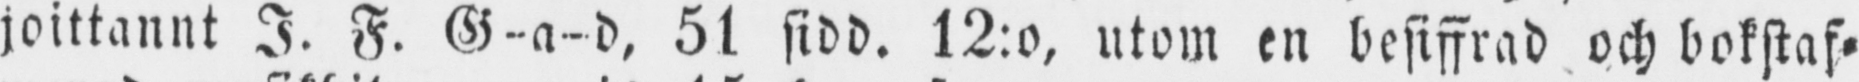joittanut I. F. G-a-d, 51 sidd. 12:o, utom en besiffrad och bokstaf-
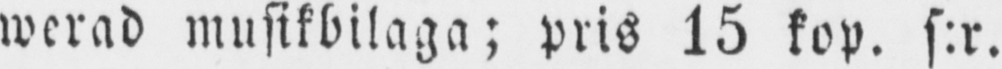werad musikbilaga; pris 15 kop. s:r.
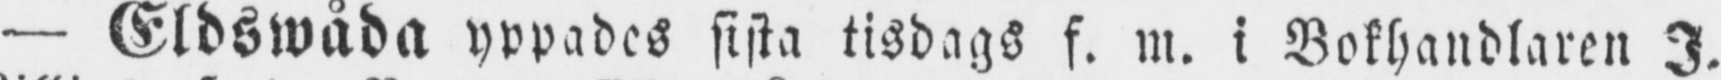— Eldswåda yppades sista tisdags f. m. i Bokhandlaren I.
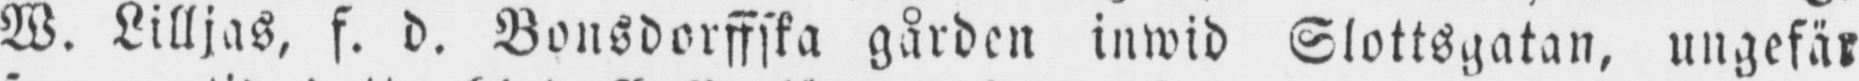W. Lilljas, f. d. Bonsdorffska gården inwid Slottsgatan, ungefär
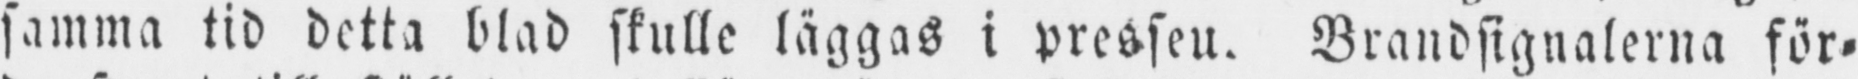samma tid detta blad skulle läggas i pressen. Brandsignalerna för-
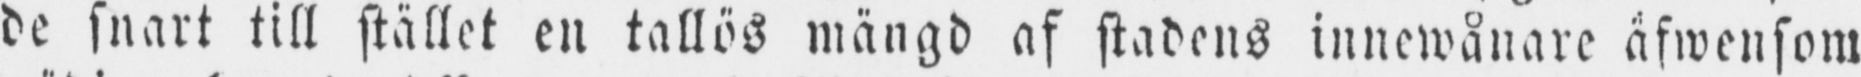de snart till stället en tallös mängd af stadens innewånare äfwensom
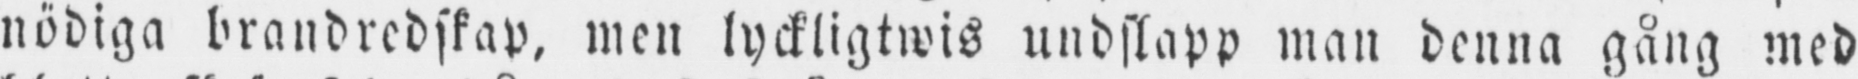nödiga brandredskap, men lyckligtwis undslapp man denna gång med
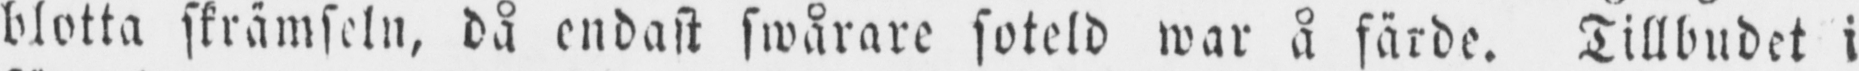blotta skrämseln, då endast swårare soteld war å färde. Tillbudet i
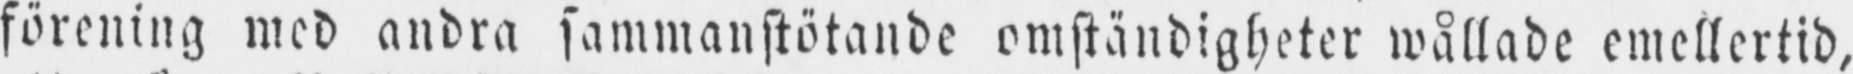förening med andra sammanstötande omständigheter wållade emellertid,
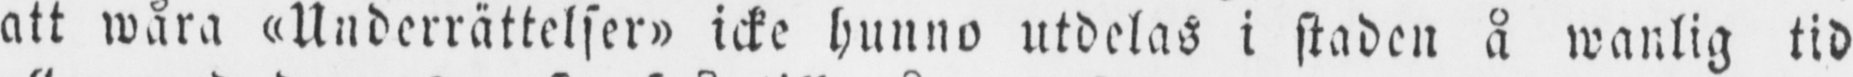att wåra "Underrättelser" icke hunno utdelas i staden å wanlig tid
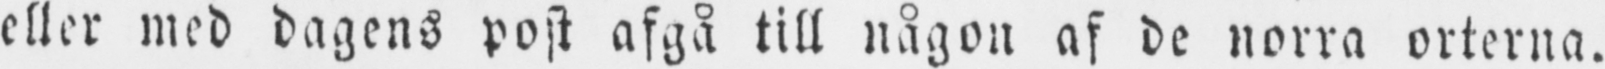eller med dagens post afgå till någon af de norra orterna.
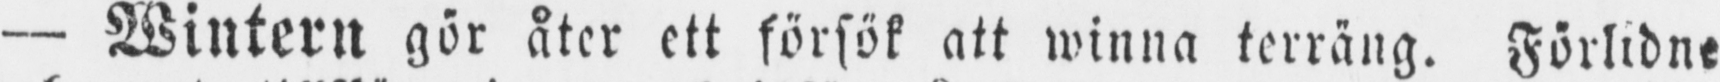— Wintern gör åter ett försök att winna terräng. Förlidne
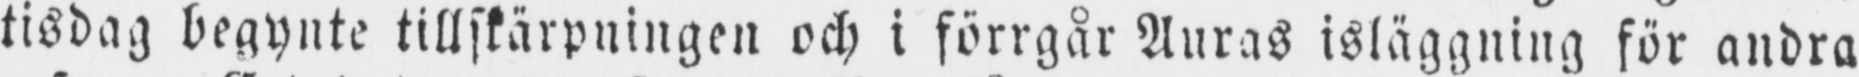tisdag begynte tillskärpningen och i förrgår Auras isläggning för andra
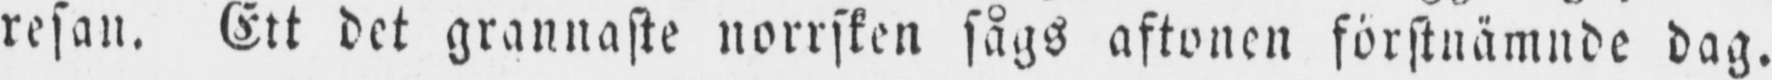resan. Ett det grannaste norrsken sågs aftonen förstnämnde dag.
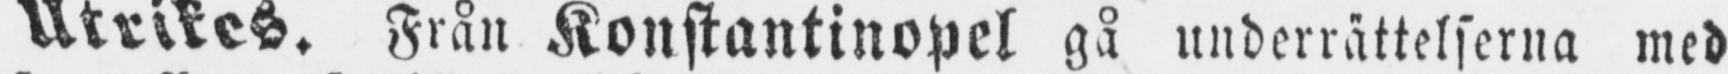Utrikes. Från Konstantinopel gå underrättelserna med
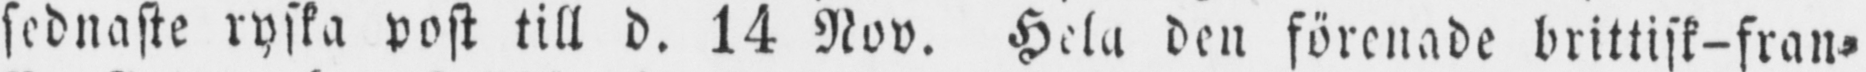sednaste ryska post till d. 14 Nov. Hela den förenade brittisk-fran-
